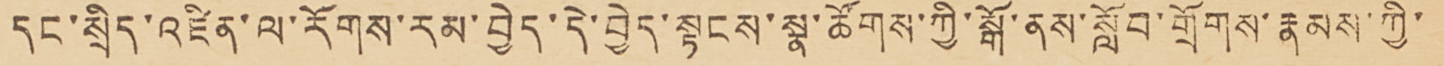དང་སྲིད་འཛིན་ལ་རོགས་རམ་བྱེད་དེ་བྱེད་སྟངས་སྣ་ཚོགས་ཀྱི་སྒོ་ནས་སློབ་གྲོགས་རྣམས་ཀྱི་
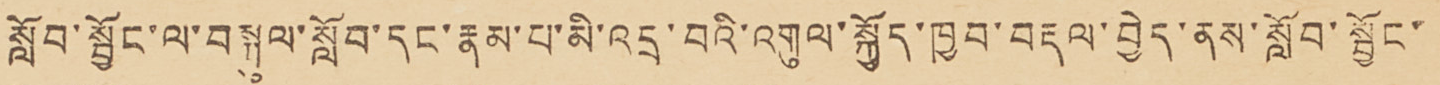སློབ་སྦྱོང་ལ་སྦཀུལ་སློབ་དང་རྣམ་པ་མི་འདྲ་བའི་འགུལ་སྐྱོད་ཁྱབ་བརྡལ་བྱེད་ནས་སློབ་སྦྱོང་
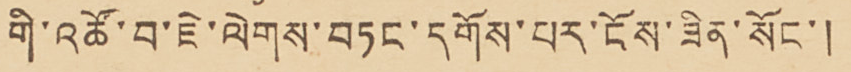གི་འཚོ་བ་ཇེ་ལེགས་བཏང་དགོས་པར་ངོས་ཟིན་སོང་།
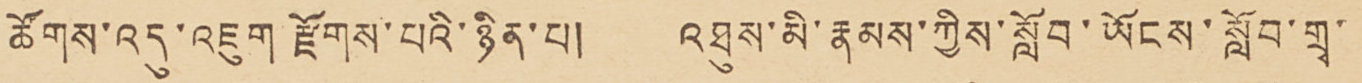ཚོགས་འདུ་འཇུག རྫོགས་པའི་ཉིན་པ། འཐུས་མི་རྣམས་ཀྱིས་སློབ་ཡོངས་སློབ་གྲྭ་
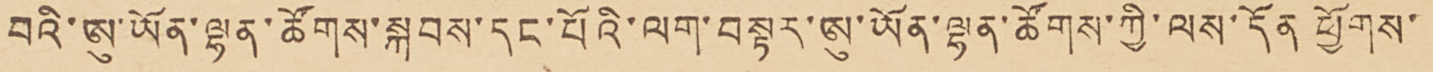བའི་ཨུ་ཡོན་ལྷན་ཚོགས་སྐབས་དང་པོའི་ལག་བསྟར་ཨུ་ཡོན་ལྷན་ཚོགས་ཀྱི་ལས་དོན ཕྱོགས་
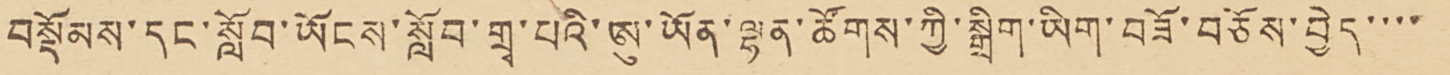བསྡོམས་དང་སློབ་ཡོངས་སློབ་གྲྭ་པའི་ཨུ་ཡོན་ལྷན་ཚོགས་ཀྱི་སྒྲིག་ཡིག་བཟོ་བཅོས་བྱེད་་་་
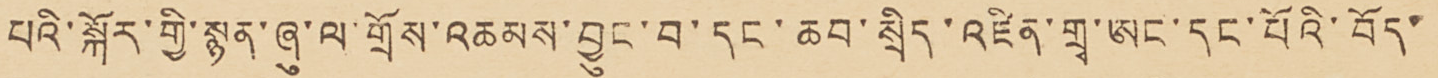པའི་སྐོར་གྱི་སྙན་ཞུ་ལ་གྲོས་འཆམས་བྱུང་བ་དང་ཆབ་སྲིད་འཛིན་གྲྭ་ཨང་དང་པོའི་བོད་
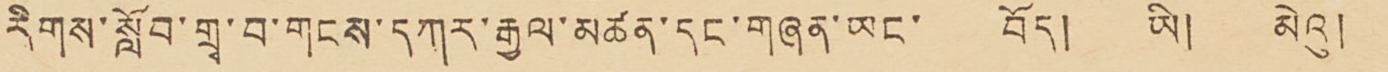རིགས་སློབ་གྲྭ་བ་གངས་དཀར་རྒྱལ་མཚན་དང་གཞན་ཡང་ བོད། ཡི། མེའུ།
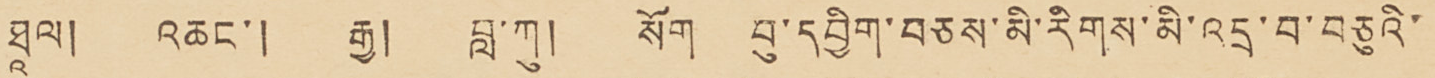ཐཱལ། འཆང་། རྒྱ། བླ་ཀུ། སོག བུ་དབྱིག་བཅས་མི་རིགས་མི་འདྲ་བ་བཅུའི་
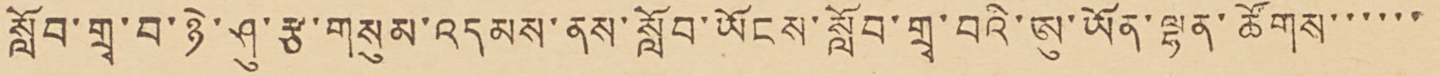སློབ་གྲྭ་བ་ཉེ་ཤུ་རྩ་གསུམ་འདམས་ནས་སློབ་ཡོངས་སློབ་གྲྭ་བའི་ཨུ་ཡོན་ལྷན་ཚོགས་་་་་་
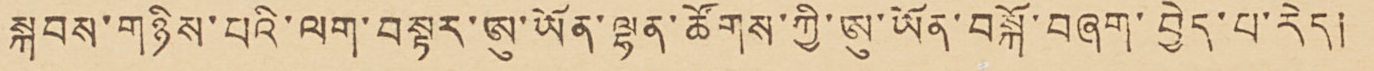སྐབས་གཉིས་པའི་ལག་བསྟར་ཨུ་ཡོན་ལྷན་ཚོགས་ཀྱི་ཨུ་ཡོན་བསྐོ་བཞག་བྱེད་པ་རེད།
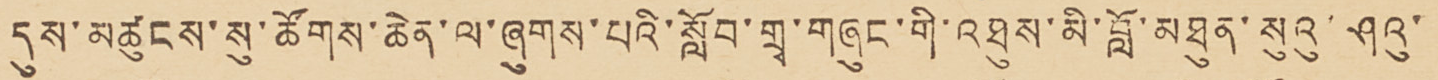དུས་མཚུངས་སུ་ཚོགས་ཆེན་ལ་ཞུགས་པའི་སློབ་གྲྭ་གཞུང་གི་འཐུས་མི་བློ་མཐུན་སུའུ་ཤའུ་
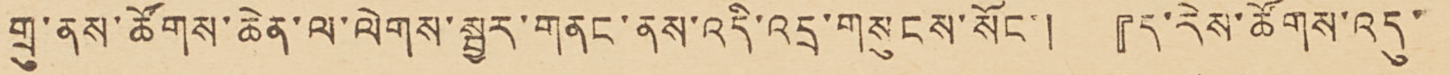གྲུ་ནས་ཚོགས་ཆེན་ལ་ལེགས་སྦྱར་གནང་ནས་འདི་འདྲ་གསུངས་སོང་། 『ད་རེས་ཚོགས་འདུ་
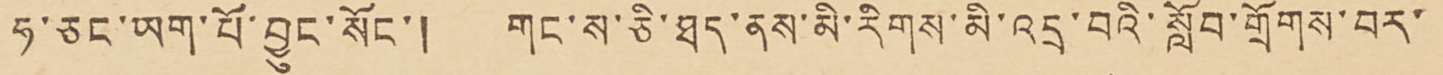ཧ་ཅང་ཡག་པོ་བྱུང་སོང་། གང་ས་ཅི་ཐད་ནས་མི་རིགས་མི་འདྲ་བའི་སློབ་གྲོགས་བར་
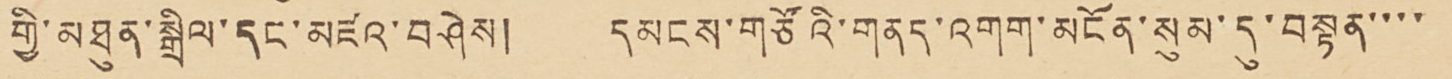གྱི་མཐུན་སྒྲིལ་དང་མཛའ་བཤེས། དམངས་གཙོའི་གནད་འགག་མངོན་སུམ་དུ་བསྟན་་་་
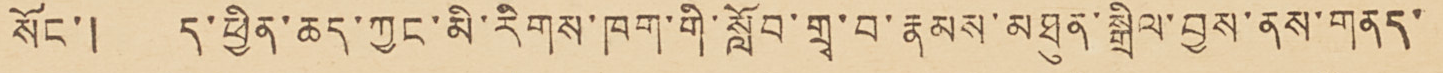སོང་། ད་ཕྱིན་ཆད་ཀྱང་མི་རིགས་ཁག་གི་སློབ་གྲྭ་བ་རྣམས་མཐུན་སྒྲིལ་བྱས་ནས་གནད་
